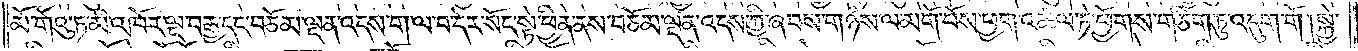མོ་གོའུ་ཏ་མི་འཁོར་ལྔ་བརྒྱ་དང་བཅོམ་ལྡན་འདས་ག་ལ་བ་དེར་སོང་སྟེ་ཕྱིན་ནས་བཅོམ་ལྡན་འདས་ཀྱི་ཞབས་གཉིས་ལ་མགོ་པོས་ཕྱག་འཚལ་ཏེ་ཕྱོགས་གཅིག་ཏུ་འདུག་གོ །སྐྱེ་
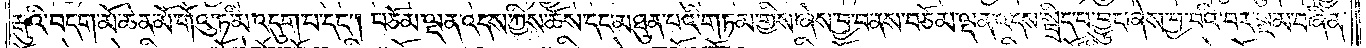རྒུའི་བདག་མོ་ཆེན་མོ་གོའུ་ཏ་མི་འདུག་པ་དང༌། བཅོམ་ལྡན་འདས་ཀྱིས་ཆོས་དང་མཐུན་པའི་གཏམ་གྱིས་ཞེས་བྱ་བ་ནས་བཅོམ་ལྡན་འདས་སྦྲིད་པ་བྱུང་ཞེས་བྱ་བའི་བར་སྔ་མ་བཞིན་
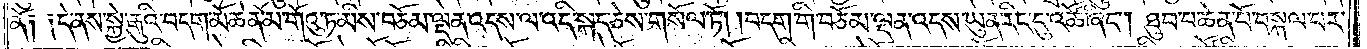ནོ། །དེ་ནས་སྐྱེ་རྒུའི་བདག་མོ་ཆེན་མོ་གོའུ་ཏ་མེས་བཅོམ་ལྡན་འདས་ལ་འདི་སྐད་ཅེས་གསོལ་ཏོ། །བདག་གི་བཅོམ་ལྡན་འདས་ཡུན་རིང་དུ་འཚོ་ཞིང༌། ཐུབ་པ་ཆེན་པོ་བསྐལ་པར་
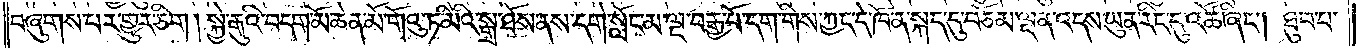བཞུགས་པར་གྱུར་ཅིག །སྐྱེ་རྒུའི་བདག་མོ་ཆེན་པོ་གོའུ་ཏ་མིའི་སྒྲ་ཐོས་ནས་དགེ་སློང་མ་ལྔ་བརྒྱ་པོ་དག་གིས་ཀྱང་དེ་ཁོ་ན་སྐད་དུ་བཅོམ་ལྡན་འདས་ཡུན་རིང་དུ་འཚོ་ཞིང༌། ཐུབ་པ་
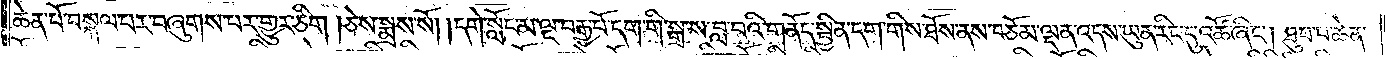ཆེན་པོ་བསྐལ་པར་བཞུགས་པར་གྱུར་ཅིག །ཅེས་སྨྲས་སོ། །དགེ་སློང་མ་ལྔ་བརྒྱ་པོ་དག་གི་སྒྲ་ས་བླ་བའི་གནོད་སྦྱིན་དག་གིས་ཐོས་ནས་བཅོམ་ལྡན་འདས་ཡུན་རིང་དུ་འཚོ་ཞིང༌། ཐུབ་པ་ཆེན་
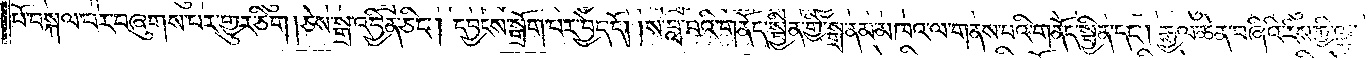པོ་བསྐལ་པར་བཞུགས་པར་གྱུར་ཅིག །ཅེས་སྒྲ་འབྱིན་ཅིང༌། དབྱངས་སྒྲོག་པར་བྱེད་དོ། །ས་བླ་བའི་གནོད་སྦྱིན་གྱི་སྒྲ་ནམ་མཁའ་ལ་གནས་པའི་གནོད་སྦྱིན་དང༌། རྒྱལ་ཆེན་བཞིའི་རིས་ཀྱི་ལྷ་
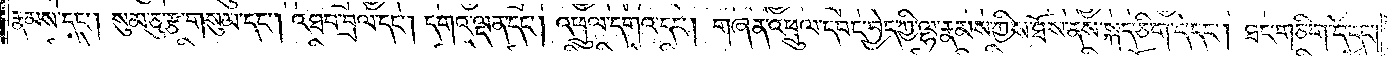རྣམས་དང༌། སུམ་ཅུ་རྩ་གསུམ་དང༌། འཐབ་བྲལ་དང༌། དགའ་ལྡན་དང༌། འཕྲུལ་དགའ་དང༌། གཞན་འཕྲུལ་དབང་བྱེད་ཀྱི་ལྷ་རྣམས་ཀྱིས་ཐོས་ནས་སྐད་ཅིག་དེ་དང༌། ཐང་གཅིག་དེ་དང༌།
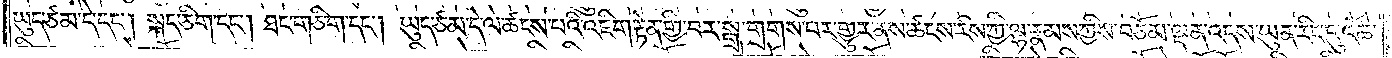ཡུད་ཙམ་དེ་དང༌། སྐད་ཅིག་དང༌། ཐང་གཅིག་དང༌། ཡུད་ཙམ་དེ་ལ་ཚངས་པའི་འཇིག་རྟེན་གྱི་བར་སྒྲ་གྲགས་པར་གྱུར་ནས་ཚངས་རིས་ཀྱི་ལྷ་རྣམས་ཀྱིས་བཅོམ་ལྡན་འདས་ཡུན་རིང་དུ་འཚོ་
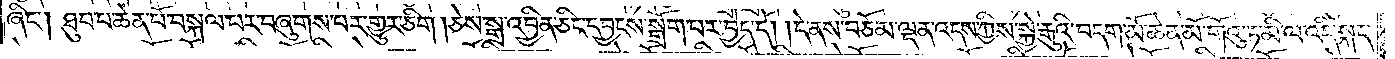ཞིང༌། ཐུབ་པ་ཆེན་པོ་བསྐལ་པར་བཞུགས་པར་གྱུར་ཅིག །ཅེས་སྒྲ་འབྱིན་ཅིང་དབྱངས་སྒྲོག་པར་བྱེད་དོ། །དེ་ནས་བཅོམ་ལྡན་འདས་ཀྱིས་སྐྱེ་རྒུའི་བདག་མོ་ཆེན་མོ་གོའུ་ཏ་མི་ལ་འདི་སྐད་
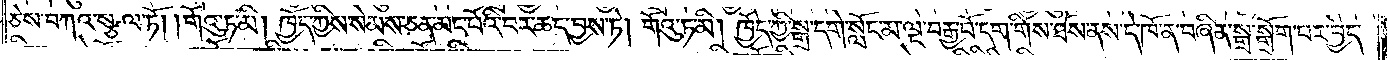ཅེས་བཀའ་སྩལ་ཏོ། །གོའུ་ཏ་མི། ཁྱོད་ཀྱིས་སེམས་ཅན་མང་པོའི་བར་ཆད་བྱས་ཏེ། གོའུ་ཏ་མི། ཁྱོད་ཀྱི་སྒྲ་དགེ་སློང་མ་ལྔ་བརྒྱ་པོ་དག་གིས་ཐོས་ནས་དེ་ཁོ་ན་བཞིན་སྒྲ་སྒྲོག་པར་བྱེད་
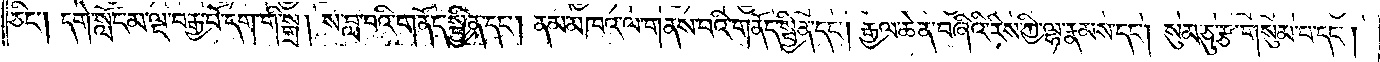ཅིང༌། དགེ་སློང་མ་ལྔ་བརྒྱ་པོ་དག་གི་སྒྲ། ས་བླ་བའི་གནོད་སྦྱིན་དང༌། ནམ་མཁའ་གནས་པའི་གནོད་སྦྱིན་དང༌། རྒྱལ་ཆེན་བཞིའི་རིས་ཀྱི་ལྷ་རྣམས་དང༌། སུམ་ཅུ་རྩ་གསུམ་པ་དང༌།
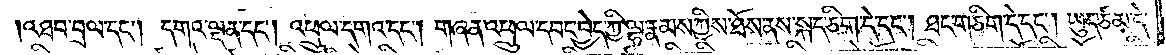འཐབ་བྲལ་དང༌། དགའ་ལྡན་དང༌། འཕྲུལ་དགའ་དང༌། གཞན་འཕྲུལ་དབང་བྱེད་ཀྱི་ལྷ་རྣམས་ཀྱིས་ཐོས་ནས་སྐད་ཅིག་དེ་དང༌། ཐང་གཅིག་དེ་དང༌། ཡུད་ཙམ་དེ་
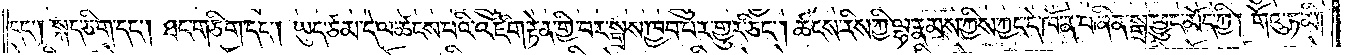དང༌། སྐད་ཅིག་དང༌། ཐང་གཅིག་དང༌། ཡུད་ཙམ་དེ་ལ་ཚངས་པའི་འཇིག་རྟེན་གྱི་བར་སྒྲས་ཁྱབ་པར་གྱུར་ཅིང༌། ཚངས་རིས་ཀྱི་ལྷ་རྣམས་ཀྱིས་ཀྱང་དེ་ཁོ་ན་བཞིན་སྒྲ་ཕྱུང་མོད་ཀྱི། གོའུ་ཏ་མི།
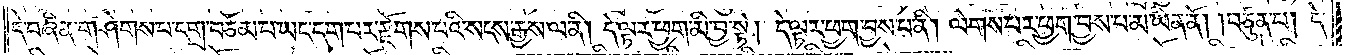དེ་བཞིན་གཤེགས་པ་དགྲ་བཅོམ་པ་ཡང་དག་པར་རྫོགས་པའི་སངས་རྒྱས་ལ་ནི། དེ་ལྟར་ཕྱག་མི་བྱ་སྟེ། དེ་ལྟར་ཕྱག་བྱས་པ་ནི། ལེགས་པར་ཕྱག་བྱས་པ་མ་ཡིན་ནོ། །བཙུན་པ། དེ་
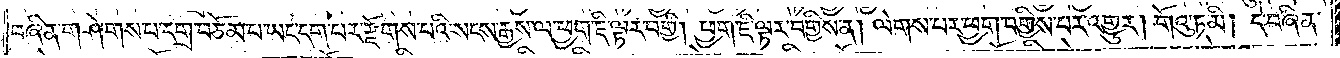བཞིན་གཤེགས་པ་དགྲ་བཅོམ་པ་ཡང་དག་པར་རྫོགས་པའི་སངས་རྒྱས་ལ་ཕྱག་ཇི་ལྟར་བགྱི། ཕྱག་ཇི་ལྟར་བགྱིས་ན། ལེགས་པར་ཕྱག་བགྱིས་པར་འགྱུར། གོའུ་ཏ་མི། དེ་བཞིན་
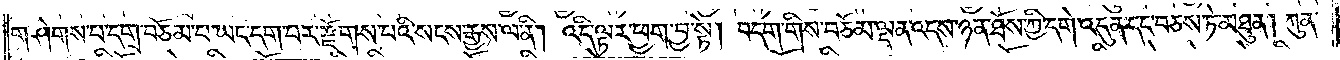གཤེགས་པ་དགྲ་བཅོམ་པ་ཡང་དག་པར་རྫོགས་པའི་སངས་རྒྱས་ལ་ནི། འདི་ལྟར་ཕྱག་བྱ་སྟེ། བདག་གིས་བཅོམ་ལྡན་འདས་ཉན་ཐོས་ཀྱི་དགེ་འདུན་དང་བཅས་ཏེ་མཐུན། ཀུན་
